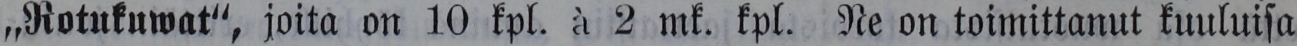„ Rotukuwat", joita on 10 kpl. à 2 mk. kpl. Ne on toimittanut kuuluisa
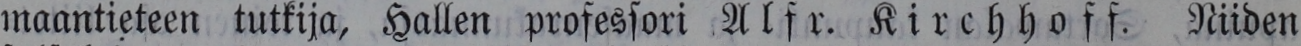maantieteen tutkija, Hallen professori Alfr. Kirchhoff. Niiden
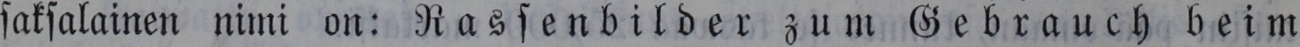saksalainen nimi on: Rassenbilder zum Gebrauch beim
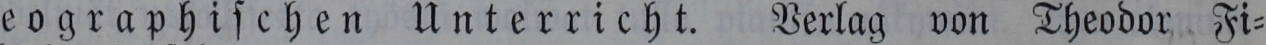geographischen Unterricht. Verlag von Theodor Fi-
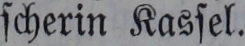scherin Kassel.
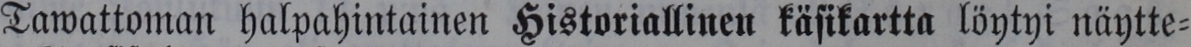Tawattoman halpahintainen Historiallinen käsikartta löytyi näytte-
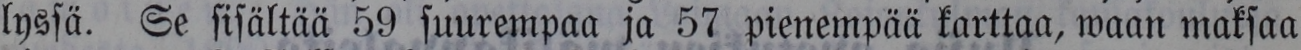lyssä. Se sisältää 59 suurempaa ja 57 pienempää karttaa, waan maksaa
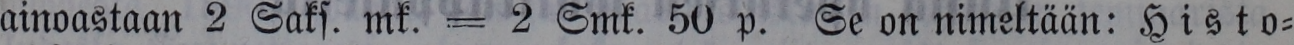ainoastaan 2 Saks. mk.- 2 Smk. 50 p. Se on nimeltään: Histo-
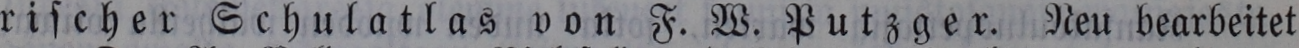rischer Schulatlas von F. W. Putzger. Neu bearbeitet
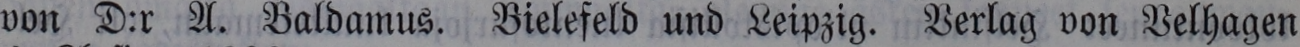von D:r A. Baldamus. Bielefeld und Leipzig. Verlag von Velhagen
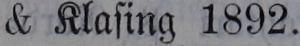& Klasing 1892.
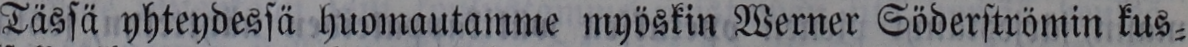Tässä yhteydessä huomautamme myöskin Werner Söderströmin kus-
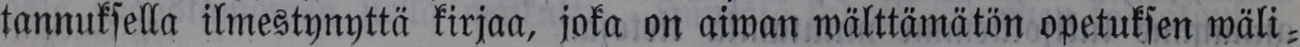tannuksella ilmestynyttä kirjaa, joka on aiwan wälttämätön opetuksen wäli-
